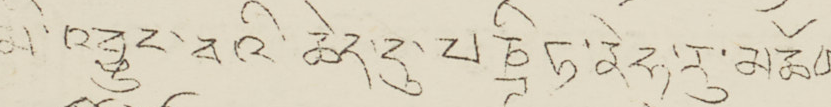མི་འབྱུང་བའི་ཆེད་དུ་པཎྜིཏ་ནེཧ་རུ་མཆོག་
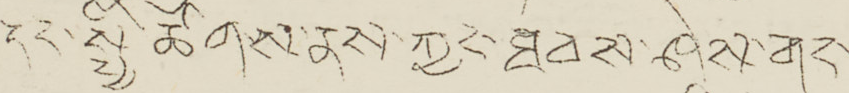དང་སྤྱི་ཚོགས་ནས་ཀྱང་ཐབས་ཤེས་གང་
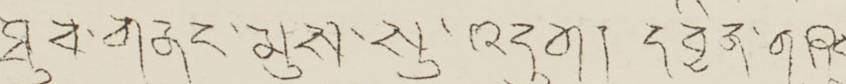ཐུབ་གནང་མུས་སུ་འདུག། ། དབྱིན་གཞུང
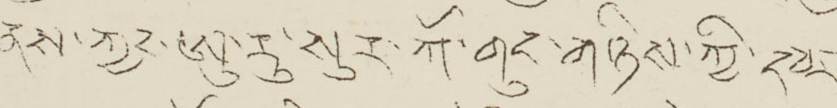ནས་ཀྱང་ཨུ་རུ་སུར་ཀོ་གུང་གཉིས་ཀྱི་དཔར་
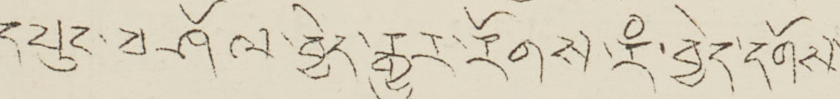དཔུང་བཤོལ་བྱེད་རྒྱུར་རོགས་རཾ་བྱེད་དགོས་
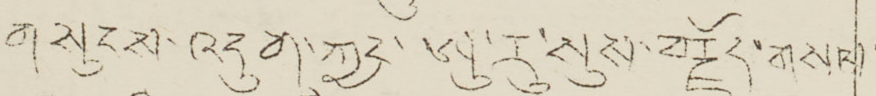གསུངས་འདུག་ཀྱང་ཨུ་རུ་སུས་བརྗོད་གསལ་
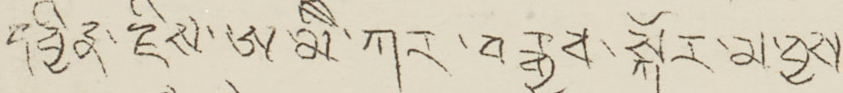དབྱིན་རྗིས་ཨ་མཻ་ཀར་བརྒྱས་སྐོར་མ་བྱས
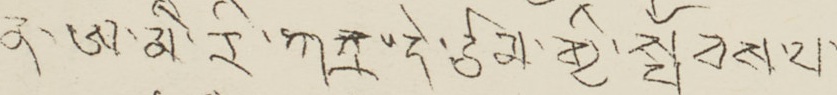ན་ཨ་མི་རི་ཀར་དེ་ཙམ་གྱི་སྤོབས་པ་
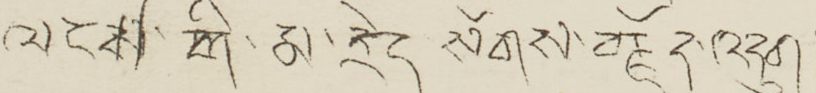ལངས་གི་མ་རེད སོགས་བརྗོད་འདུག །
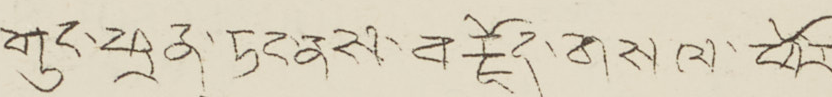གུང་ཕྲན་ཏང་ནས་བརྗོད་གསལ་ཕོར་
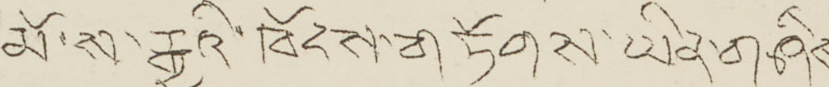མོ་ས་རྒྱའི་ཁོངས་གཏོགས་ཡིན་གཤིས
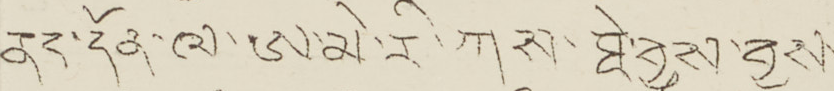ནང་དོན་ལ་ཨ་མི་རི་ཀས་ཐེ་བྱུས་བྱས་
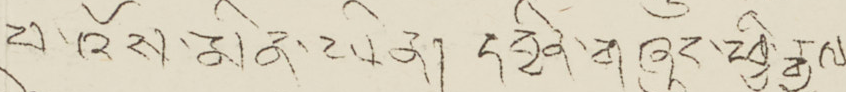པ་འོས་མིན་ཡིན། དབྱིན་གཞུང་ཕྱི་རྒྱལ་
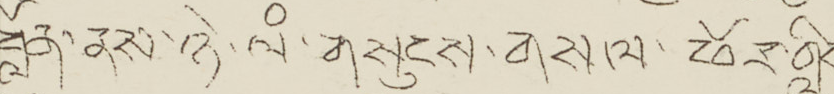བློན་ནས་ཉེ་ལཾ་གསུངས་གསལ་ཕོར་གླིང་
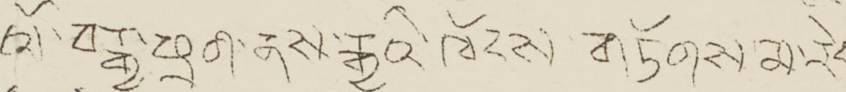ལོ་བརྒྱ་ཕྲག་ནས་རྒྱའི་ཁོངས་གཏོགས་མ་རེད་
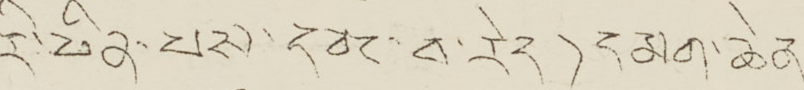རི་ཕིན་པས་དབང་རེད། དམག་ཆེན་
